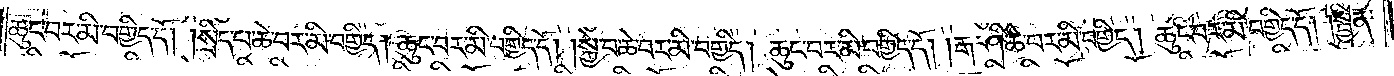ཆུང་བར་མི་བགྱིད་དོ། །སྲིད་པ་ཆེ་བར་མི་བགྱིད། ཆུང་བར་མི་བགྱིད་དོ། །སྐྱེ་བ་ཆེ་བར་མི་བགྱིད། ཆུང་བར་མི་བགྱིད་དོ། །རྒ་ཤི་ཆེ་བར་མི་བགྱིད། ཆུང་བར་མི་བགྱིད་དོ། །སྦྱིན་
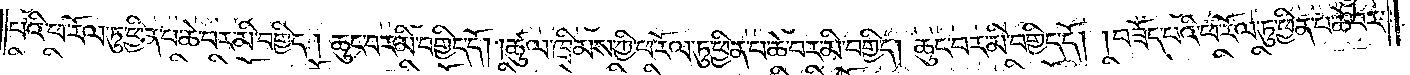པའི་ཕ་རོལ་ཏུ་ཕྱིན་པ་ཆེ་བར་མི་བགྱིད། ཆུང་བར་མི་བགྱིད་དོ། །ཚུལ་ཁྲིམས་ཀྱི་ཕ་རོལ་ཏུ་ཕྱིན་པ་ཆེ་བར་མི་བགྱིད། ཆུང་བར་མི་བགྱིད་དོ། །བཟོད་པའི་ཕ་རོལ་ཏུ་ཕྱིན་པ་ཆེ་བར་
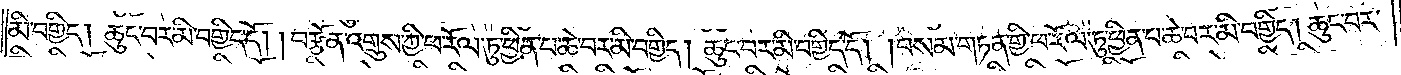མི་བགྱིད། ཆུང་བར་མི་བགྱིད་དོ། །བརྩོན་འགྲུས་ཀྱི་ཕ་རོལ་ཏུ་ཕྱིན་པ་ཆེ་བར་མི་བགྱིད། ཆུང་བར་མི་བགྱིད་དོ། །བསམ་གཏན་གྱི་ཕ་རོལ་ཏུ་ཕྱིན་པ་ཆེ་བར་མི་བགྱིད། ཆུང་བར་
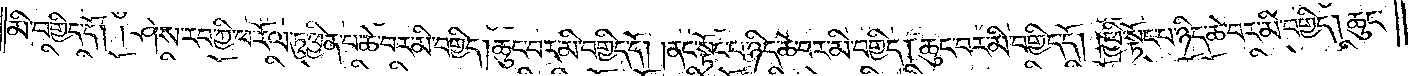མི་བགྱིད་དོ། །ཤེས་རབ་ཀྱི་ཕ་རོལ་ཏུ་ཕྱིན་པ་ཆེ་བར་མི་བགྱིད། ཆུང་བར་མི་བགྱིད་དོ། །ནང་སྟོང་པ་ཉིད་ཆེ་བར་མི་བགྱིད། ཆུང་བར་མི་བགྱིད་དོ། །ཕྱི་སྟོང་པ་ཉིད་ཆེ་བར་མི་བགྱིད། ཆུང་
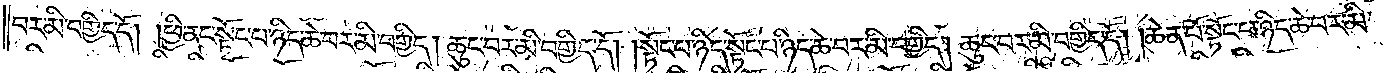བར་མི་བགྱིད་དོ། །ཕྱི་ནང་སྟོང་པ་ཉིད་ཆེ་བར་མི་བགྱིད། ཆུང་བར་མི་བགྱིད་དོ། །སྟོང་པ་ཉིད་སྟོང་པ་ཉིད་ཆེ་བར་མི་བགྱིད། ཆུང་བར་མི་བགྱིད་དོ། །ཆེན་པོ་སྟོང་པ་ཉིད་ཆེ་བར་མི་
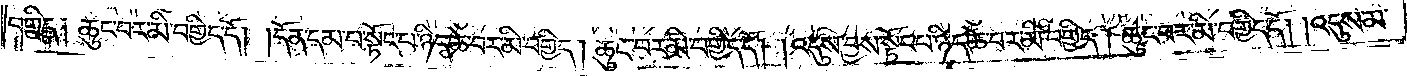བགྱིད༑ ཆུང་བར་མི་བགྱིད་དོ། །དོན་དམ་པ་སྟོང་པ་ཉིད་ཆེ་བར་མི་བགྱིད། ཆུང་བར་མི་བགྱིད་དོ། །འདུས་བྱས་སྟོང་པ་ཉིད་ཆེ་བར་མི་བགྱིད། ཆུང་བར་མི་བགྱིད་དོ། །འདུས་མ་
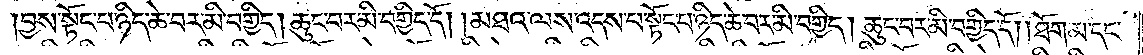བྱས་སྟོང་པ་ཉིད་ཆེ་བར་མི་བགྱིད། ཆུང་བར་མི་བགྱིད་དོ། །མཐའ་ལས་འདས་པ་སྟོང་པ་ཉིད་ཆེ་བར་མི་བགྱིད། ཆུང་བར་མི་བགྱིད་དོ། །ཐོག་མ་དང་
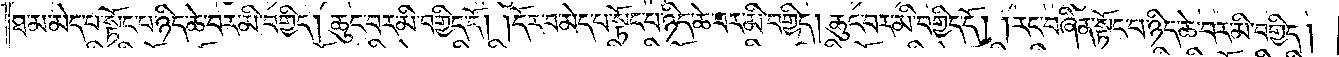ཐ་མ་མེད་པ་སྟོང་པ་ཉིད་ཆེ་བར་མི་བགྱིད། ཆུང་བར་མི་བགྱིད་དོ། །དོར་བ་མེད་པ་སྟོང་པ་ཉིད་ཆེ་བར་མི་བགྱིད། ཆུང་བར་མི་བགྱིད་དོ། །རང་བཞིན་སྟོང་པ་ཉིད་ཆེ་བར་མི་བགྱིད།
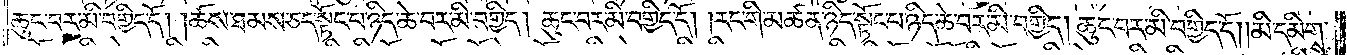ཆུང་བར་མི་བགྱིད་དོ། །ཆོས་ཐམས་ཅད་སྟོང་པ་ཉིད་ཆེ་བར་མི་བགྱིད། ཆུང་བར་མི་བགྱིད་དོ། །རང་གི་མཚན་ཉིད་སྟོང་པ་ཉིད་ཆེ་བར་མི་བགྱིད། ཆུང་བར་མི་བགྱིད་དོ། །མི་དམིགས་
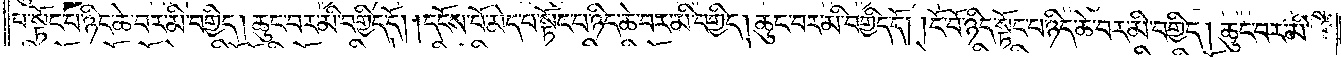པ་སྟོང་པ་ཉིད་ཆེ་བར་མི་བགྱིད། ཆུང་བར་མི་བགྱིད་དོ། །དངོས་པོ་མེད་པ་སྟོང་པ་ཉིད་ཆེ་བར་མི་བགྱིད། ཆུང་བར་མི་བགྱིད་དོ། །ངོ་བོ་ཉིད་སྟོང་པ་ཉིད་ཆེ་བར་མི་བགྱིད། ཆུང་བར་མི་
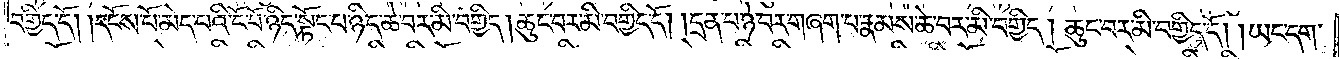བགྱིད་དོ། །དངོས་པོ་མེད་པའི་ངོ་བོ་ཉིད་སྟོང་པ་ཉིད་ཆེ་བར་མི་བགྱིད། ཆུང་བར་མི་བགྱིད་དོ། །དྲན་པ་ཉེ་བར་གཞག་པ་རྣམས་ཆེ་བར་མི་བགྱིད། ཆུང་བར་མི་བགྱིད་དོ། །ཡང་དག་
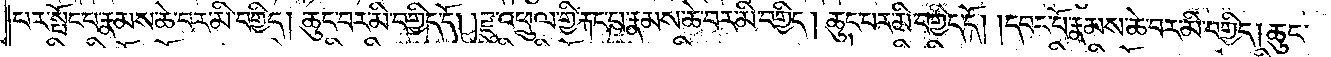པར་སྤོང་པ་རྣམས་ཆེ་བར་མི་བགྱིད། ཆུང་བར་མི་བགྱིད་དོ། །རྫུ་འཕྲུལ་གྱི་རྐང་པ་རྣམས་ཆེ་བར་མི་བགྱིད། ཆུང་བར་མི་བགྱིད་དོ། །དབང་པོ་རྣམས་ཆེ་བར་མི་བགྱིད། ཆུང་
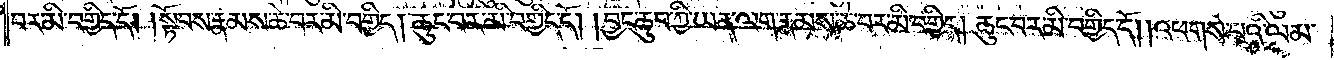བར་མི་བགྱིད་དོ། །སྟོབས་རྣམས་ཆེ་བར་མི་བགྱིད། ཆུང་བར་མི་བགྱིད་དོ། །བྱང་ཆུབ་ཀྱི་ཡན་ལག་རྣམས་ཆེ་བར་མི་བགྱིད། ཆུང་བར་མི་བགྱིད་དོ། །འཕགས་པའི་ལམ་
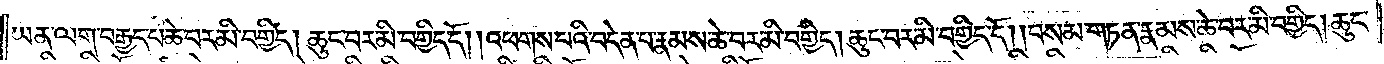ཡན་ལག་བརྒྱད་པ་ཆེ་བར་མི་བགྱིད། ཆུང་བར་མི་བགྱིད་དོ། །འཕགས་པའི་བདེན་པ་རྣམས་ཆེ་བར་མི་བགྱིད། ཆུང་བར་མི་བགྱིད་དོ། །བསམ་གཏན་རྣམས་ཆེ་བར་མི་བགྱིད། ཆུང་
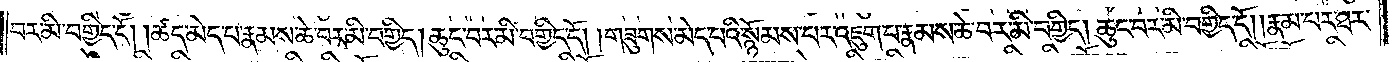བར་མི་བགྱིད་དོ། །ཚད་མེད་པ་རྣམས་ཆེ་བར་མི་བགྱིད། ཆུང་བར་མི་བགྱིད་དོ། །གཟུགས་མེད་པའི་སྙོམས་པར་འཇུག་པ་རྣམས་ཆེ་བར་མི་བགྱིད། ཆུང་བར་མི་བགྱིད་དོ། །རྣམ་པར་ཐར་
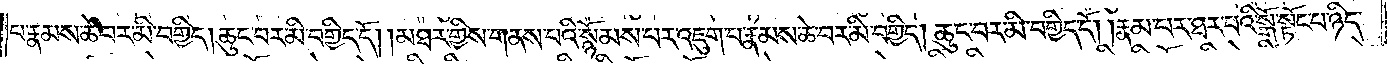པ་རྣམས་ཆེ་བར་མི་བགྱིད། ཆུང་བར་མི་བགྱིད་དོ། །མཐར་གྱིས་གནས་པའི་སྙོམས་པར་འཇུག་པ་རྣམས་ཆེ་བར་མི་བགྱིད། ཆུང་བར་མི་བགྱིད་དོ། །རྣམ་པར་ཐར་པའི་སྒོ་སྟོང་པ་ཉིད་
